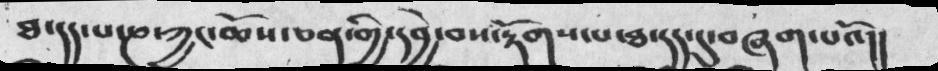ཐ་དད་པ་ཎ་ཀྱང་ཆོས་ཅན་གྱི་དབྱེ་བས་རྟོགས་པ་ཐ་དད་དུ་བཞག་པའོ།།
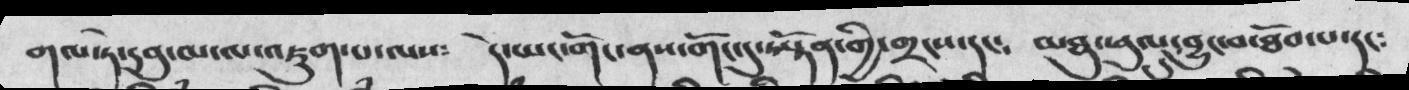གལ་ཏེ་དབུ་མ་ལ་འཇུག་པ་ལས༴  དེ་ཡང་གོང་ནས་གོང་དུ་ཡྟོན་གྱི་གྲངས་དང༴  མཐུ་ཕུལ་དུ་བྱུང་བ་ཐོབ་པ་དང༴
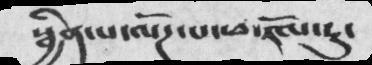སྦྱིན་པ་ལོཌ་པ་ཕ་རོལ་ཏུ་།
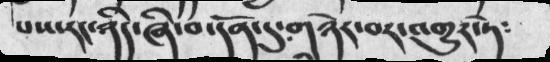པས་རང་ཉིད་ཞི་བ་དོན་དུ་གཉེར་བར་འགྱུར་ཏེ༴
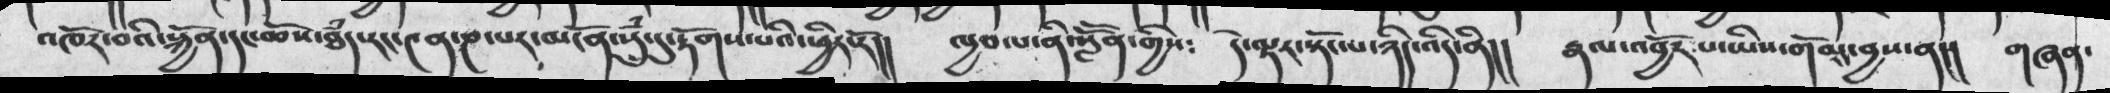འཁོར་བའི་སྐྱོན་དང་ཆོས་ཐཾད་རང་༤ན་ཎ་པར་མངོན་སུཾ་དུ་རྟོགས་པའི་ཕྱིར།།  ཁྱབ་པ་ནི་སློོན་གྱིས༴  དེ་ལྟར་སྟོང་པ་ཉིད་འདི་ནི།།  རྣལ་འབྱོར་པ་ཡིས་གོམས་བྱས་ན།།  གཞན་
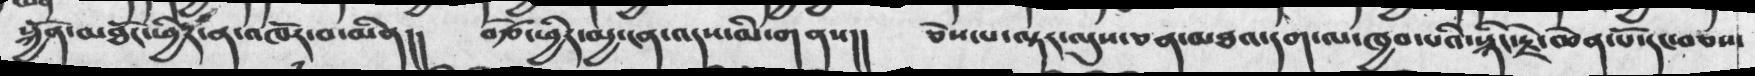སྐྱོན་མཐོང་ཕྱིར་ན་འཁོར་བ་མིན།།  བརྩེ་ཕྱིར་མྱ་ངན་འདས་མི་གནས།།  ཅེསཔ་ལྟར་ལུས་ཅན་མཐའ་དག་ལ་ཁྱབ་པའི་སྙིང་རྗེ་ཆེན་པོ་དང་བཅས་
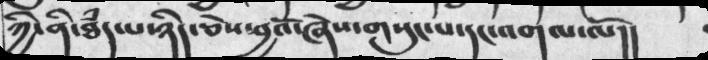ཀྱི་ནི་ཐཾད་པ་ཉིད་ཅེས་བྱའོ་ཞེས་གསུང་པ་དང་འགལ་ལོ།།
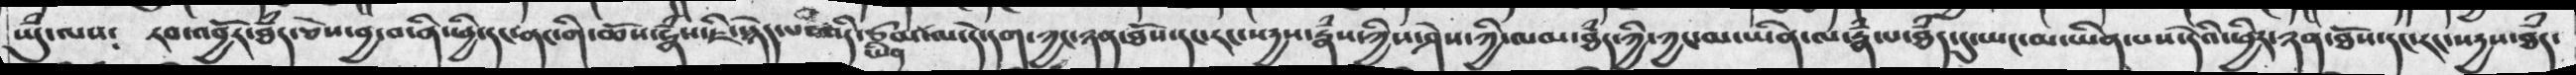ཡུཾ་ལས༴  རབ་འབྱོར་ཐཾད་ཅེས་བྱ་བ་ནི་ཕྱི་དང་ནང་གི་ཆོས་རྣཾས་ཇི་སྙེད་པ་འདི་ཡིན་ཙམ་ལ་དེ་དག་ཀྱང་ཉན་ཐོས་རང་སདྱས་རྣྃས་ཀྱིས་ཤེས་ཀྱི་ལམ་ཐཾད་ཀྱི་ཀྱང་མ་ཡན་ལ་རྣཾ་པ་ཐཾད་དུ་ཡང་མ་ཡིན་པས་དེའི་ཕྱིར་ཉན་ཐོས་དང་རང་སདྱས་ཐྃད་
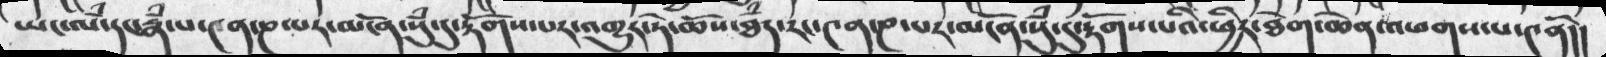ཡང་ལཾ་དང་རྣ་པ་༤ན་ཎ་པར་མངོན་སུཾ་དུ་རྟོགས་པར་འགྱུར་ཏེ་ཆོས་ཐཾད་རང་༤ན་ཎ་པར་མངོན་སུཾ་དུ་རྟོགསཔའི་ཕྱིར་ཐེག་ཆེན་འཕགས་པ་༤ནོ།།
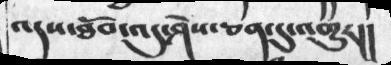འདས་ཐོབ་འདུ་ཤེས་ཅན་དུ་འགྱུར།།
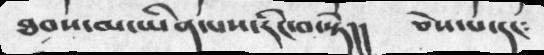ཐབས་མ་ཡིན་པས་རིང་བ་སྟེ།།    ཅེས་པ་དང༴
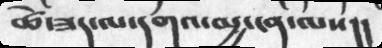ཚེ་ཟད་ལ་དགའ་མྱ་ངན་ལས།།
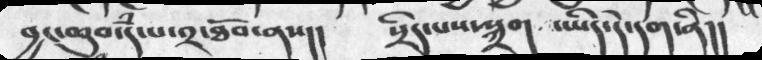བྱང་ཆུབ་དཾ་པ་༢་ཐོབ་ནས།།  སྲིད་པས་སྐྲག  ་ཡིད་དེ་དག་ནི།།
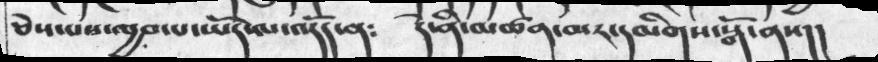ཅེས་པས་ཁྱབ་པ་ཡོད་ལ་འདོད་ན༴    དེ་ནི་མཚན་མར་དམིགས་སྒོ་ནས།།
